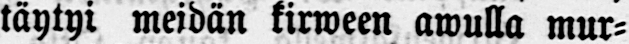täytyi meidän kirween awulla mur-
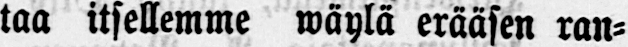taa itsellemme wäylä erääsen ran-
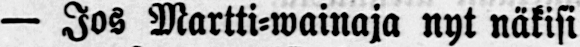— Jos Martti-wainaja nyt näkisi
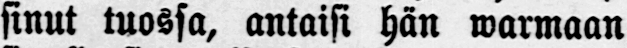sinut tuossa, antaisi hän warmaan
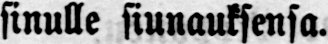sinulle siunauksensa.
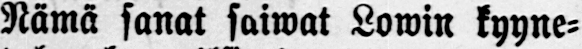Nämä sanat saiwat Lowin kyyne-
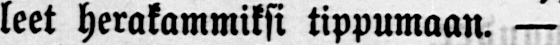leet herakammiksi tippumaan. —
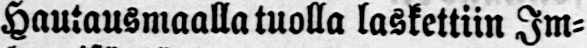Hautausmaalla tuolla laskettiin Im-
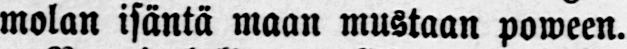molan isäntä maan mustaan poween.
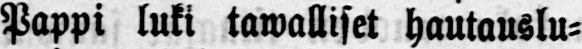Pappi luki tawalliset hautauslu-
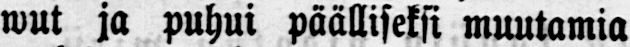wut ja puhui päälliseksi muutamia
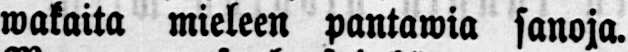wakaita mieleen pantawia sanoja.
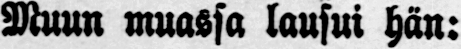Muun muassa lausui hän:
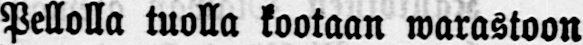Pellolla tuolla kootaan warastoon
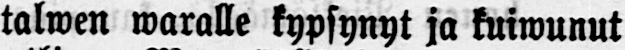talwen waralle kypsynyt ja kuiwunut
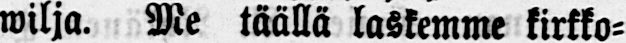wilja. Me täällä laskemme kirkko-
